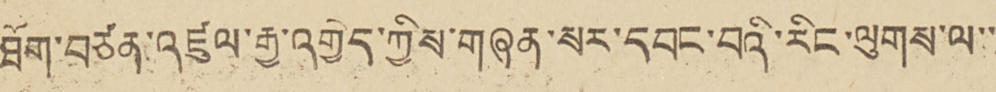ཐོག་བཙན་འཛུལ་རྒྱ་འགྱེད་ཀྱིས་གཞན་སར་དབང་བའི་རིང་ལུགས་ལ་་
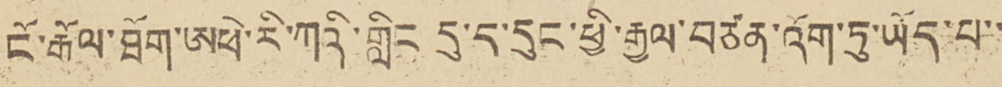ངོ་རྒོལ་ཐོག་ཨཕེ་རི་ཀའི་གླིང དུ་ད་དུང་ཕྱི་རྒྱལ་བཙན་འོག་ཏུ་ཡོད་པ་་
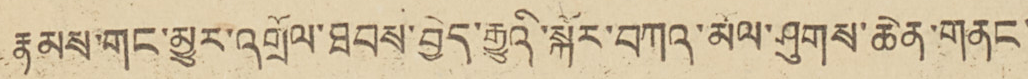རྣམས་གང་མྱུར་འགྲོལ་ཐབས་བྱེད་རྒྱུའི་སྐོར་བཀའ་མོལ་ཤུགས་ཆེན་གནང་
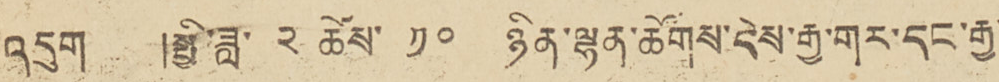འདུག །སྤྱི་ཟླ་ ༢ ཚེས་ ༡༠ ཉིན་ལྷན་ཚོགས་དེས་རྒྱ་གར་དང་རྒྱ་
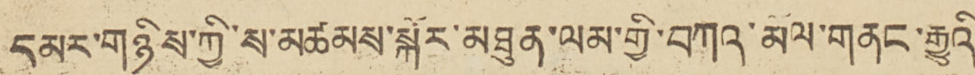དམར་གཉིས་ཀྱི་ས་མཚམས་སྐོར་མཐུན་ལམ་གྱི་བཀའ་མོལ་གནང་རྒྱུའི་
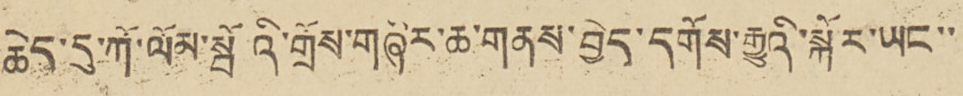ཆེད་དུ་ཀོ་ལོམ་སྦོའི་གྲོས་གཞིར་ཆ་གནས་བྱེད་དགོས་རྒྱུའི་སྐོར་ཡང་་
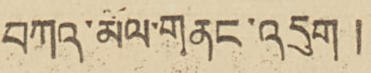བཀའ་མོལ་གནང་འདུག །
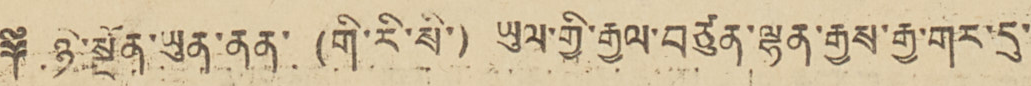༈ ཉེ་སྔོན་ཡུན་ནན་ (གི་རི་སི་) ཡུལ་གྱི་བཙུན་ལྷན་རྒྱས་རྒྱ་གར་དུ་
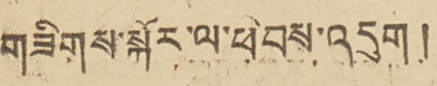གཟིགས་སྐོར་ལ་ཕེབས་འདུག །
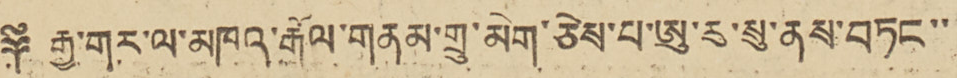༈ རྒྱ་གར་ལ་མཁའ་རྒོལ་གནམ་གྲུ་མེག་ཅེས་པ་ཨུ་རུ་སུ་ནས་བཏང་་
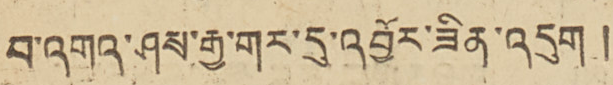བ་འགའ་ཤས་རྒྱ་གར་དུ་འབྱོར་ཟིན་འདུག །
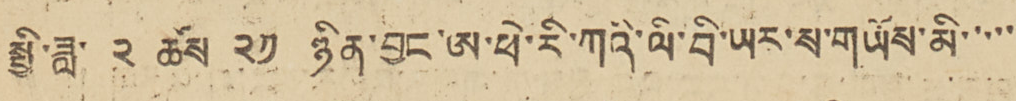སྤྱི་ཟླ་ ༢ ཚེས་ ༢༡ ཉིན་བྱང་ཨ་ཕི་རི་ཀའི་ལི་བི་ཡར་ས་གཡོག་མི་་་་་
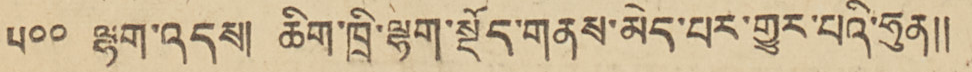༥༠༠ ལྷག་འདས། ཆིག་ཁྲི་ལྷག་སྡོད་གནས་མེད་པར་གྱུར་པའི་ཧུན།།
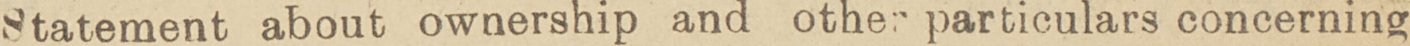Statement about ownership and other particulars concerning
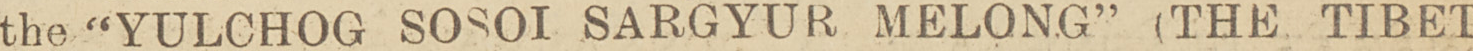the ''YULCHOG SOSOI SARGYUR MELONG'' (THE TIBET
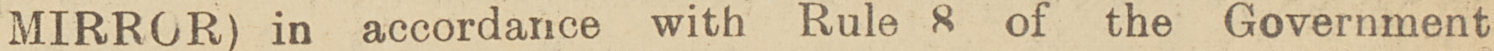MIRROR) in accordance with Rule 8 of the Government
